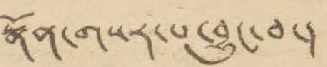སྣོན་གསར་པ་བྱུང་བ་།
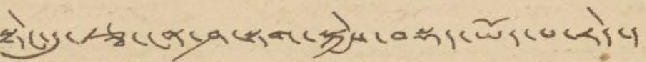སྟེང་དུ་རྩ་ངན་ཤ་སྟག་སྐྱེས་བསྡད་ཡོད་པ་རེད་།
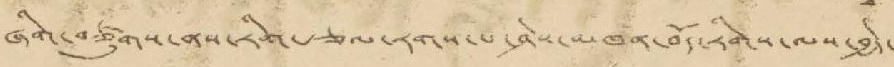ཞིག་བཙུགས་ནས་རིག་རྩལ་རགས་པ་ཤེས་མཁན་བོད་རིགས་ལས་བྱེད་
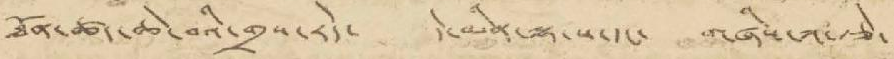ཐོན་ཚད་ཆེ་བའི་གྲས་རེད་ དེ་མིན་ལྷ་ས་དང་ གཞིས་ཀ་རྩེ་
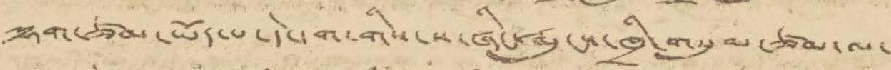ལྷག་ཙམ་ཡོད་པ་དེ་དག་གིས་ས་ཞིང་རྨུངས་ཁྲི་གསུམ་ཙམ་ལ་
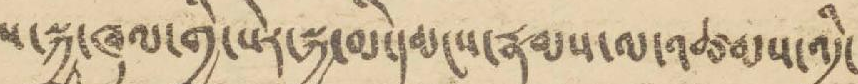ས་སྐྱ་ཁུལ་གྱི་སེར་སྐྱ་མི་དམངས་རྣམས་ལ་འཚམས་འདྲི་
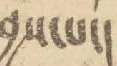བྱས་པ་།
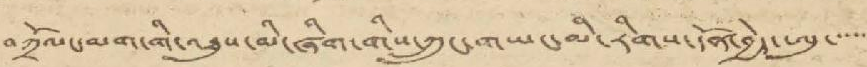བཀྲོལ་དམག་གི་འཐུས་མི་ཞིག་གིས་ཀྲུང་གཡང་མི་རིགས་དོན་བྱེད་ཨུ་་་་་་
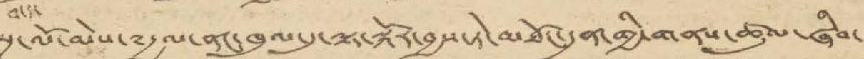སྔ་ལོ་མེས་༸རྒྱལ་ནང་ཁུལ་དུ་ལྟ་སྐོར་བྱས་ཏེ་མཐོང་དྲན་གྱི་གནས་ཚུལ་ཞིབ་
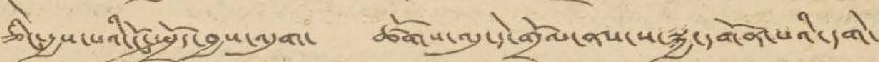ཅིང་བྱས་པའི་ངོ་སྤྲོད་བྱས་འདུག་ ཚོགས་འདུ་དེ་གྲོལ་ནས་ས་སྐྱ་དགོན་པའི་དགེ་
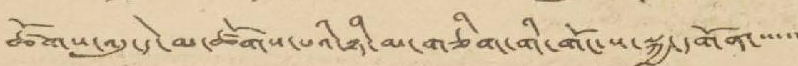ཚོགས་འདུ་དེ་མ་ཚོགས་པའི་ཉི་མ་གཅིག་གི་གོང་ས་སྐྱ་དགོན་་་་་་
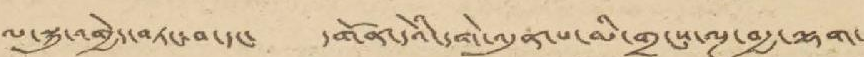ལ་སྐུ་འགྱེད་བཏང་བ་དང་ དགོན་དེའི་དགེ་འདུན་པ་མི་གྲངས་ལྔ་བརྒྱ་ལྷག་
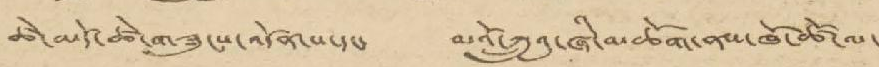ཚེ་མདོ་ཚེ་གཟུངས་འདོན་པ་དང་ མའོ་ཀྲུའུ་ཞི་མཆོག་ནས་ཁོ་ཚོ་ལ་
